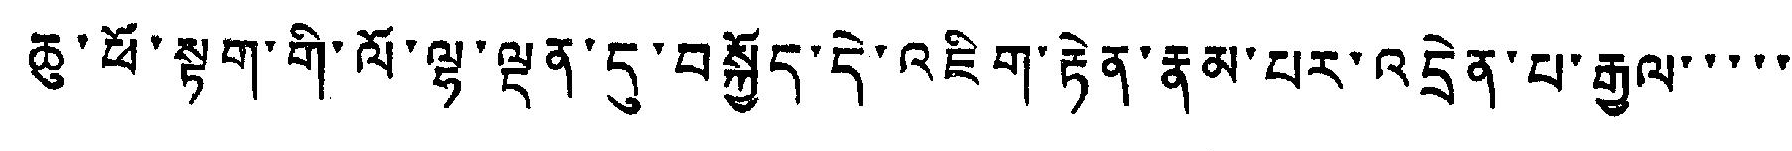ཆུ་ཕོ་སྟག་གི་ལོ་ལྷ་ལྡན་དུ་བསྐྱོད་དེ་འཇིག་རྟེན་རྣམ་པར་འདྲེན་པ་རྒྱལ་་་་་
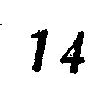14
